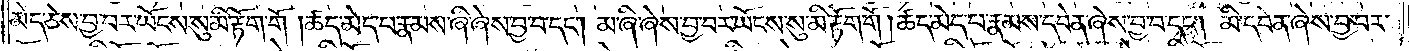མེད་ཅེས་བྱ་བར་ཡོངས་སུ་མི་རྟོག་གོ །ཚད་མེད་པ་རྣམས་ཞི་ཞེས་བྱ་བ་དང༌། མ་ཞི་ཞེས་བྱ་བར་ཡོངས་སུ་མི་རྟོག་གོ །ཚད་མེད་པ་རྣམས་དབེན་ཞེས་བྱ་བ་དང༌། མི་དབེན་ཞེས་བྱ་བར་
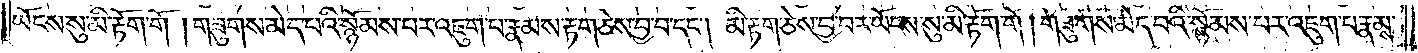ཡོངས་སུ་མི་རྟོག་གོ །གཟུགས་མེད་པའི་སྙོམས་པར་འཇུག་པ་རྣམས་རྟག་ཅེས་བྱ་བ་དང༌། མི་རྟག་ཅེས་བྱ་བར་ཡོངས་སུ་མི་རྟོག་གོ །གཟུགས་མེད་པའི་སྙོམས་པར་འཇུག་པ་རྣམས་
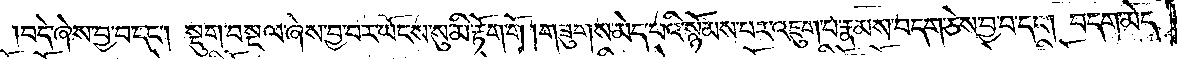བདེ་ཞེས་བྱ་བ་དང༌། སྡུག་བསྔལ་ཞེས་བྱ་བར་ཡོངས་སུ་མི་རྟོག་གོ །གཟུགས་མེད་པའི་སྙོམས་པར་འཇུག་པ་རྣམས་བདག་ཅེས་བྱ་བ་དང༌། བདག་མེད་
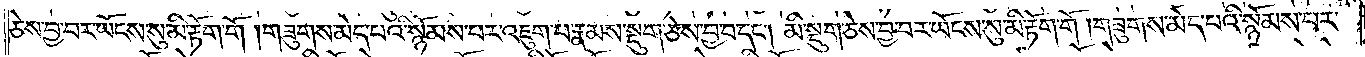ཅེས་བྱ་བར་ཡོངས་སུ་མི་རྟོག་གོ །གཟུགས་མེད་པའི་སྙོམས་པར་འཇུག་པ་རྣམས་སྡུག་ཅེས་བྱ་བ་དང༌། མི་སྡུག་ཅེས་བྱ་བར་ཡོངས་སུ་མི་རྟོག་གོ །གཟུགས་མེད་པའི་སྙོམས་པར་
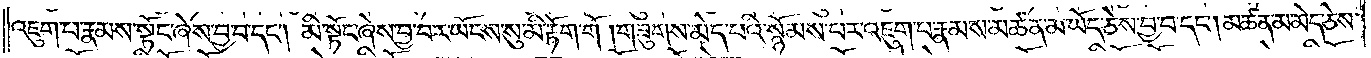འཇུག་པ་རྣམས་སྟོང་ཞེས་བྱ་བ་དང༌། མི་སྟོང་ཞེས་བྱ་བར་ཡོངས་སུ་མི་རྟོག་གོ །གཟུགས་མེད་པའི་སྙོམས་པར་འཇུག་པ་རྣམས་མཚན་མ་ཡོད་ཅེས་བྱ་བ་དང༌། མཚན་མ་མེད་ཅེས་
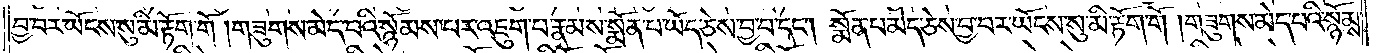བྱ་བར་ཡོངས་སུ་མི་རྟོག་གོ །གཟུགས་མེད་པའི་སྙོམས་པར་འཇུག་པ་རྣམས་སྨོན་པ་ཡོད་ཅེས་བྱ་བ་དང༌། སྨོན་པ་མེད་ཅེས་བྱ་བར་ཡོངས་སུ་མི་རྟོག་གོ །གཟུགས་མེད་པའི་སྙོམས་
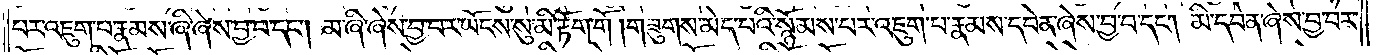པར་འཇུག་པ་རྣམས་ཞི་ཞེས་བྱ་བ་དང༌། མ་ཞི་ཞེས་བྱ་བར་ཡོངས་སུ་མི་རྟོག་གོ །གཟུགས་མེད་པའི་སྙོམས་པར་འཇུག་པ་རྣམས་དབེན་ཞེས་བྱ་བ་དང༌། མི་དབེན་ཞེས་བྱ་བར་
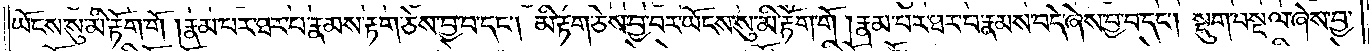ཡོངས་སུ་མི་རྟོག་གོ །རྣམ་པར་ཐར་པ་རྣམས་རྟག་ཅེས་བྱ་བ་དང༌། མི་རྟག་ཅེས་བྱ་བར་ཡོངས་སུ་མི་རྟོག་གོ །རྣམ་པར་ཐར་པ་རྣམས་བདེ་ཞེས་བྱ་བ་དང༌། སྡུག་བསྔལ་ཞེས་བྱ་
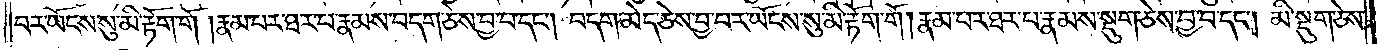བར་ཡོངས་སུ་མི་རྟོག་གོ །རྣམ་པར་ཐར་པ་རྣམས་བདག་ཅེས་བྱ་བ་དང༌། བདག་མེད་ཅེས་བྱ་བར་ཡོངས་སུ་མི་རྟོག་གོ །རྣམ་པར་ཐར་པ་རྣམས་སྡུག་ཅེས་བྱ་བ་དང༌། མི་སྡུག་ཅེས་
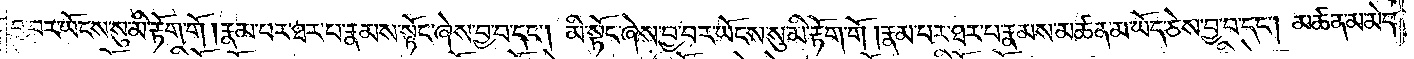བྱ་བར་ཡོངས་སུ་མི་རྟོག་གོ །རྣམ་པར་ཐར་པ་རྣམས་སྟོང་ཞེས་བྱ་བ་དང༌། མི་སྟོང་ཞེས་བྱ་བར་ཡོངས་སུ་མི་རྟོག་གོ །རྣམ་པར་ཐར་པ་རྣམས་མཚན་མ་ཡོད་ཅེས་བྱ་བ་དང༌། མཚན་མ་མེད་
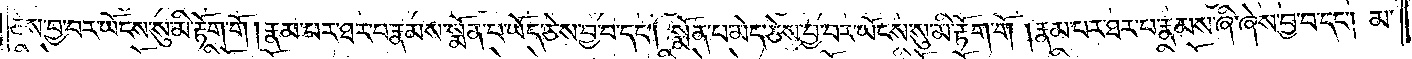ཅེས་བྱ་བར་ཡོངས་སུ་མི་རྟོག་གོ །རྣམ་པར་ཐར་པ་རྣམས་སྨོན་པ་ཡོད་ཅེས་བྱ་བ་དང༌། སྨོན་པ་མེད་ཅེས་བྱ་བར་ཡོངས་སུ་མི་རྟོག་གོ །རྣམ་པར་ཐར་པ་རྣམས་ཞི་ཞེས་བྱ་བ་དང༌། མ་
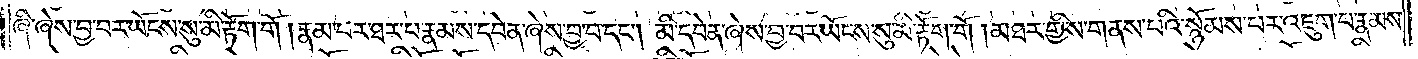ཞི་ཞེས་བྱ་བར་ཡོངས་སུ་མི་རྟོག་གོ །རྣམ་པར་ཐར་པ་རྣམས་དབེན་ཞེས་བྱ་བ་དང༌། མི་དབེན་ཞེས་བྱ་བར་ཡོངས་སུ་མི་རྟོག་གོ །མཐར་གྱིས་གནས་པའི་སྙོམས་པར་འཇུག་པ་རྣམས་
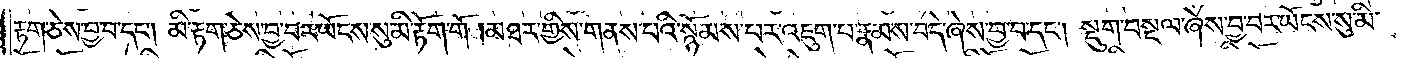རྟག་ཅེས་བྱ་བ་དང༌། མི་རྟག་ཅེས་བྱ་བར་ཡོངས་སུ་མི་རྟོག་གོ །མཐར་གྱིས་གནས་པའི་སྙོམས་པར་འཇུག་པ་རྣམས་བདེ་ཞེས་བྱ་བ་དང༌། སྡུག་བསྔལ་ཞེས་བྱ་བར་ཡོངས་སུ་མི་
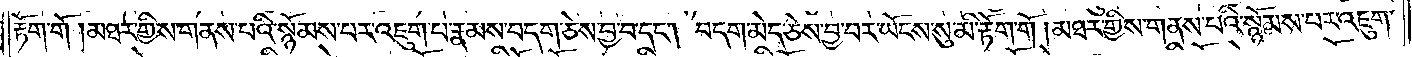རྟོག་གོ །མཐར་གྱིས་གནས་པའི་སྙོམས་པར་འཇུག་པ་རྣམས་བདག་ཅེས་བྱ་བ་དང༌། བདག་མེད་ཅེས་བྱ་བར་ཡོངས་སུ་མི་རྟོག་གོ །མཐར་གྱིས་གནས་པའི་སྙོམས་པར་འཇུག་
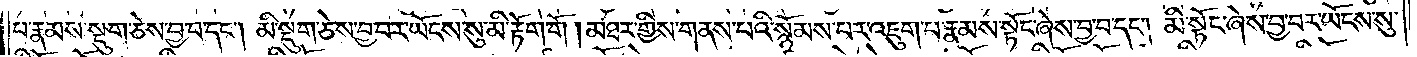པ་རྣམས་སྡུག་ཅེས་བྱ་བ་དང༌། མི་སྡུག་ཅེས་བྱ་བར་ཡོངས་སུ་མི་རྟོག་གོ །མཐར་གྱིས་གནས་པའི་སྙོམས་པར་འཇུག་པ་རྣམས་སྟོང་ཞེས་བྱ་བ་དང༌། མི་སྟོང་ཞེས་བྱ་བར་ཡོངས་སུ་
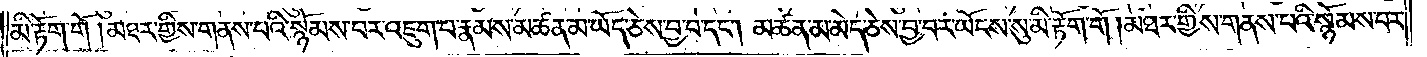མི་རྟོག་གོ །མཐར་གྱིས་གནས་པའི་སྙོམས་པར་འཇུག་པ་རྣམས་མཚན་མ་ཡོད་ཅེས་བྱ་བ་དང༌། མཚན་མ་མེད་ཅེས་བྱ་བར་ཡོངས་སུ་མི་རྟག་གོ །མཐར་གྱིས་གནས་པའི་སྙོམས་པར་
